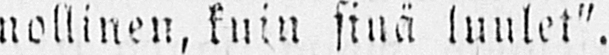nollinen, kuin siuä luulet".
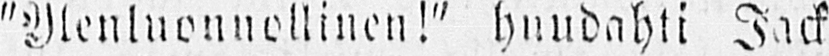"Ylenluonnollinen!" huudahti Jack
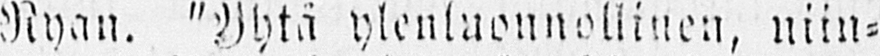Nyan. "Yhtä ylenluonnollinen, niin-
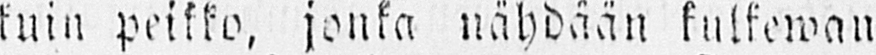kuin peikko, jonka nähdään kulkewan
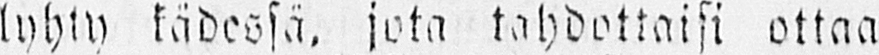lyhty kädessä, jota tahdottaisi ottaa
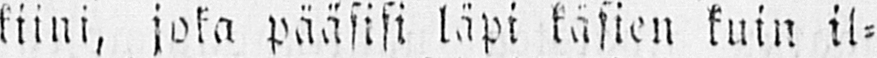kiini, joka pääsisi läpi käsien kuin il-
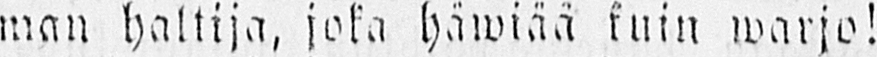man haltija, joka häwiää kuin warjo!
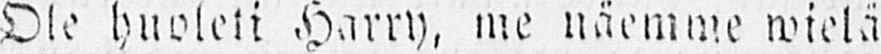Ole huoleti Harry, me näemme wielä
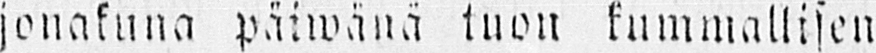jonakukuna päiwänä tuon kummallisen
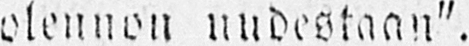olennon uudestaan".
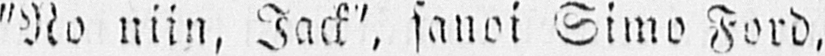"No niin, Jack', sanoi Simo Ford,
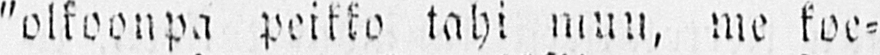"olkoonpa peikko tahi muu, me koe-
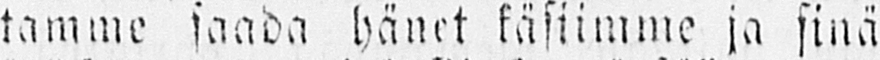tamme saada hänet käsiimme ja sinä
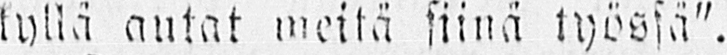kyllä autat meitä siinä työssä".
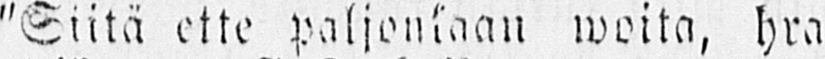"Siitä ette paljonkaan woita, hra
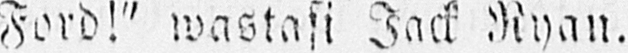Ford!" wastasi Jack Nyan.
